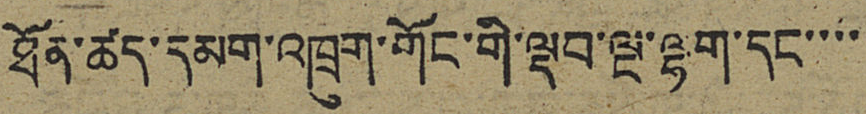ཐོན་ཚད་དམག་འཁྲུག་གོང་གི་ལྡབ་ལྔ་ལྷག་དང་་་་
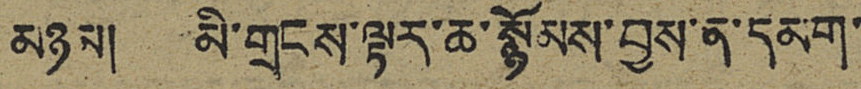མཉམ། མི་གྲངས་ལྟར་ཆ་སྙོམས་བྱས་ན་དམག་
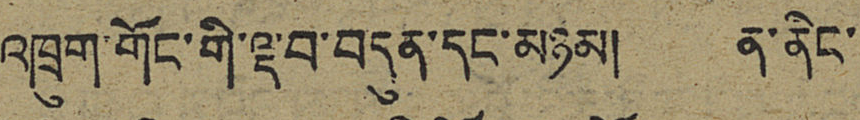འཁྲུག་གོང་གི་ལྡབ་བདུན་དང་མཉམ། ན་ནིང་
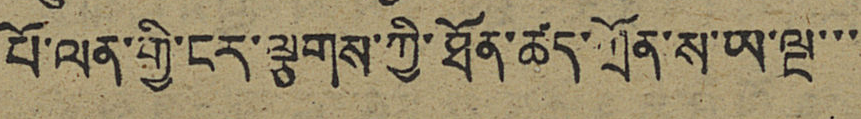པོ་ལན་གྱི་ངར་ལྕགས་ཀྱི་ཐོན་ཚད་ཀྲོན་ས་ཡ་ལྔ་་་
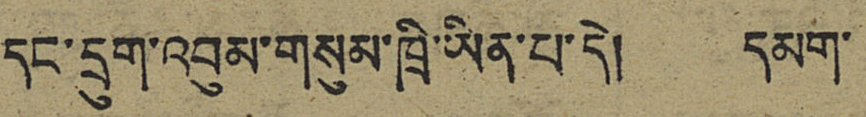དང་དྲུག་འབུམ་གསུམ་ཁྲི་ཡིན་པ་དེ། དམག་
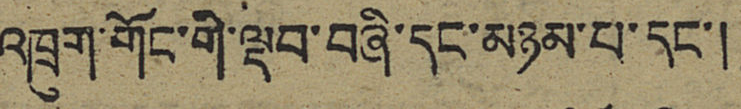འཁྲུག་གོང་གི་ལྡབ་བཞི་དང་མཉམ་པ་དང་།
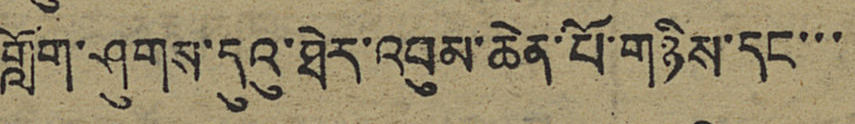གློག་ཤུགས་དུའུ་ཐེར་འབུམ་ཆེན་པོ་གཉིས་དང་་་
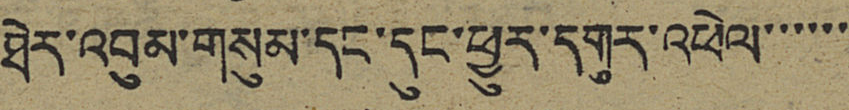ཐེར་འབུམ་གསུམ་དང་དུང་ཕྱུར་དགུར་འཕེལ་་་་་་
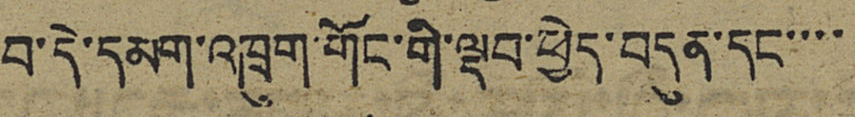བ་དེ་དམག་འཁྲུག་གོང་གི་ལྡབ་ཕྱེད་བདུན་དང་་་་
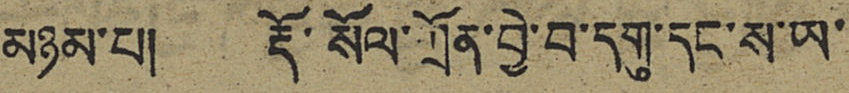མཉམ་པ། རྡོ་སོལ་གྲོན་བྱེ་བ་དགུ་དང་ས་ཡ་
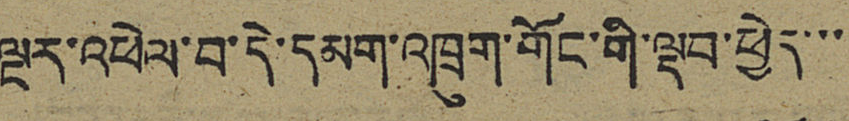ལྔར་འཕེལ་བ་དེ་དམག་འཁྲུག་གོང་གི་ལྡབ་ཕྱེད་་་
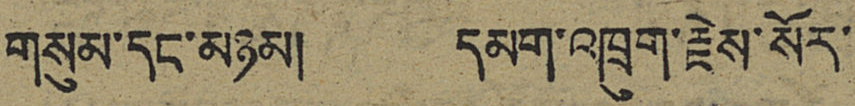གསུམ་དང་མཉམ། དམག་འཁྲུག་རྗེས་སོར་
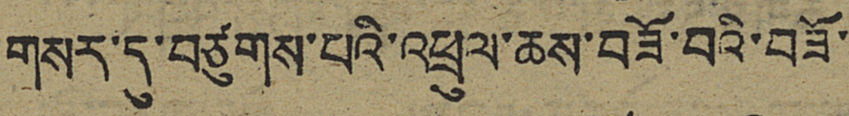གསར་དུ་བཙུགས་པའི་འཕྲུལ་ཆས་བཟོ་བའི་བཟོ་
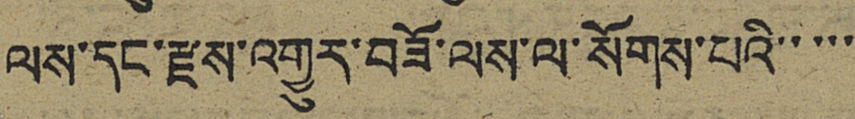ལས་དང་རྫས་འགྱུར་བཟོ་ལས་ལ་སོགས་པའི་་་་་
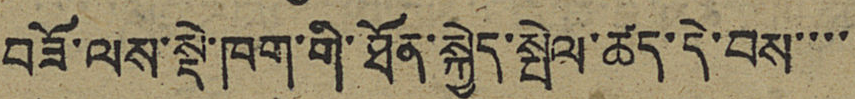བཟོ་ལས་སྡེ་ཁག་གི་ཐོན་སྐྱེད་སྤེལ་ཚད་དེ་བས་་་་
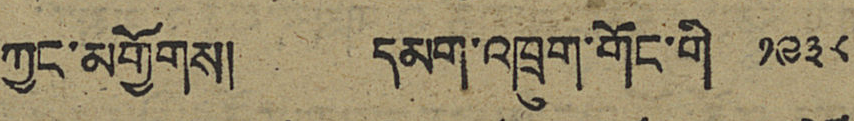ཀྱང་མགྱོགས། དམག་འཁྲུག་གོང་གི ༡༩༣༨
